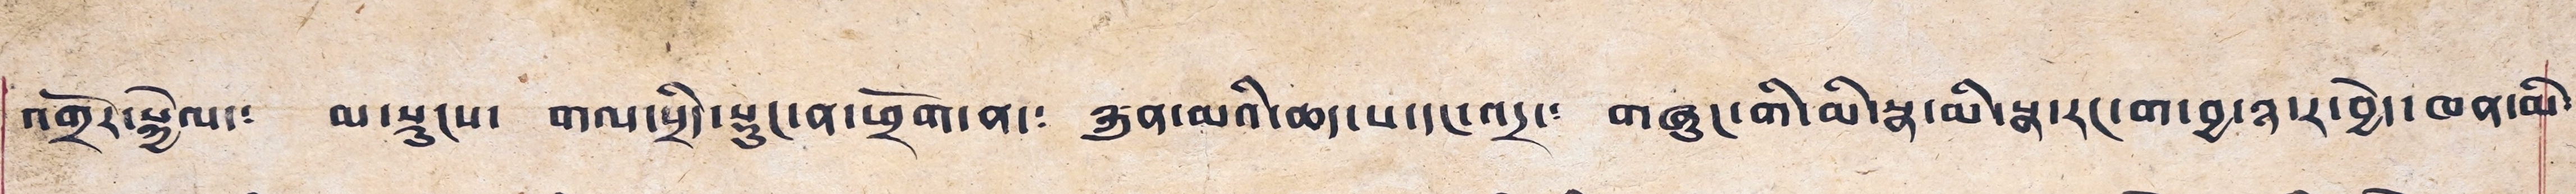འགྲོར་སྐྱེལ་༴ མ་སྡུངས། གལ་སྲིད་སྟུང་ན་ཕྲོག་ན་༴ རྐུན་མའི་ཆད་པ་དང་འདྲ་༴ གཞུང་གི་མི་སྣ་མི་སྣ་རང་ག་བྱ་ཉ་ར་བྱེད་ཁན་མི་
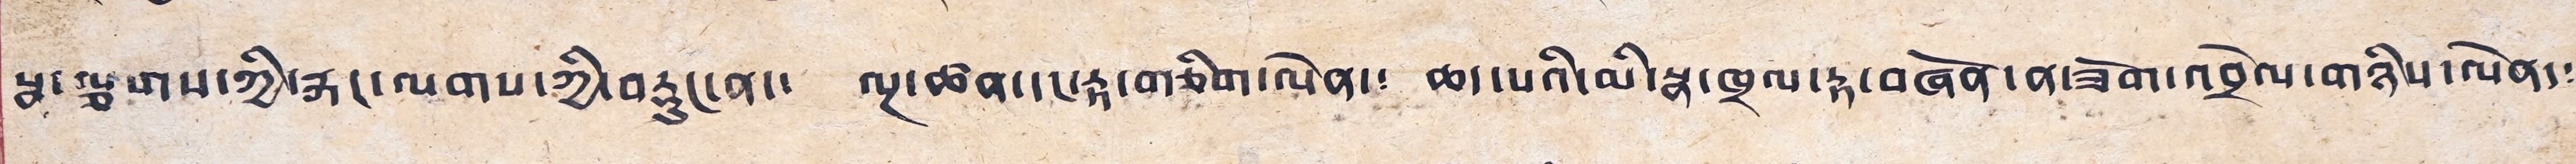སྣ་ལྕགས་ཀྱི་རྐང་ལགས་ཀྱི་བརྡུང་ན་༴ ལྔ་ཚན་དང་རྟ་གཅིག་ལེན་༴ ཆད་པའི་མི་སྣ་ཁྲལ་རྟ་བཞོན་ན་ཟོག་འབྲེལ་གཉིས་ལེན་༴
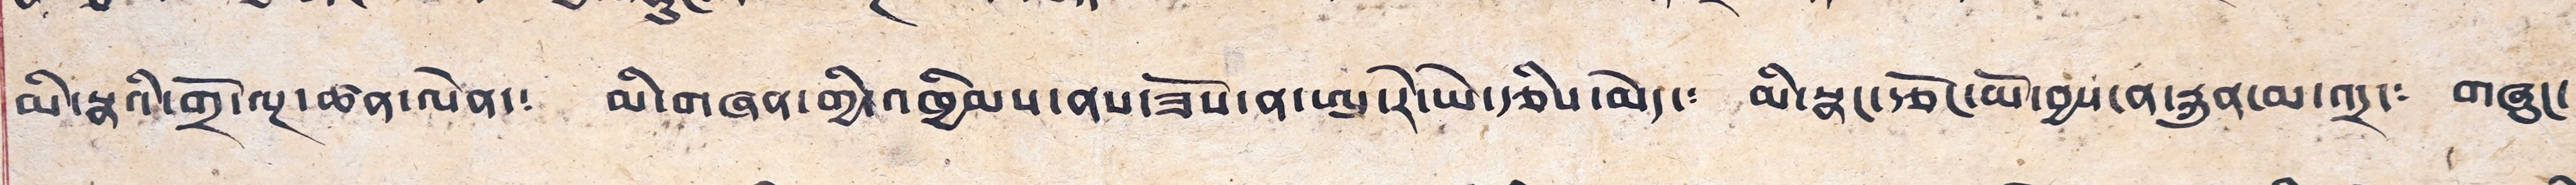མི་སྣའི་གྲོ་ལྔ་ཚན་ལེན་༴ མི་གཞན་གྱི་འཁྱིམས་ནས་ཟོས་ན་ཨུ་རེ་ཡེ་རྩིས་མེད་༴ མི་སྣང་རྩོང་ཡོ་བྱས་ན་རྐུན་མ་འདྲ་༴ གཞུང་
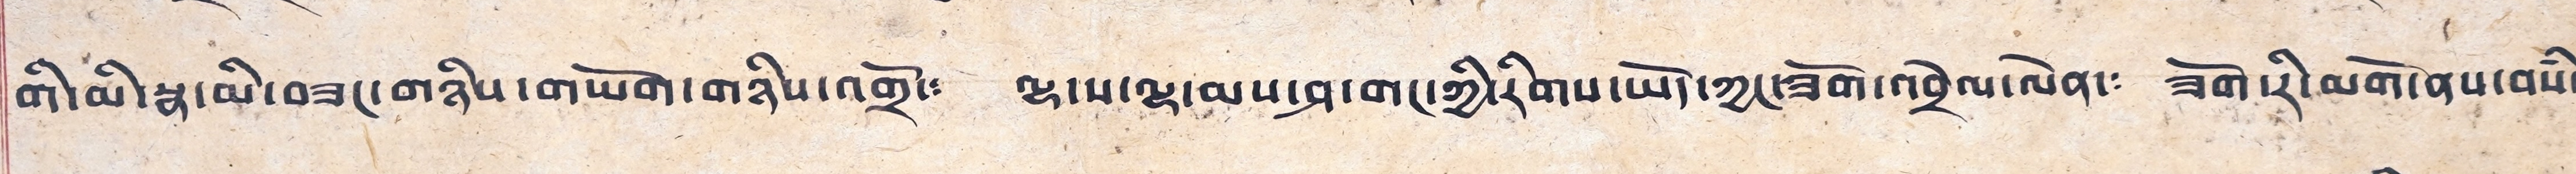གི་མི་སྣ་མི་བཟང་གཉིས་གཡོག་གཉིས་འགྲོ་༴ ལྷ་པ་ལྷ་མས་ཤ་གང་ཀྱི་རིགས་ཡོད་ཀྱང་ཟོག་འབྲེལ་ལེན་༴ ཟོག་རི་མགོ་ནས་བསཾ་
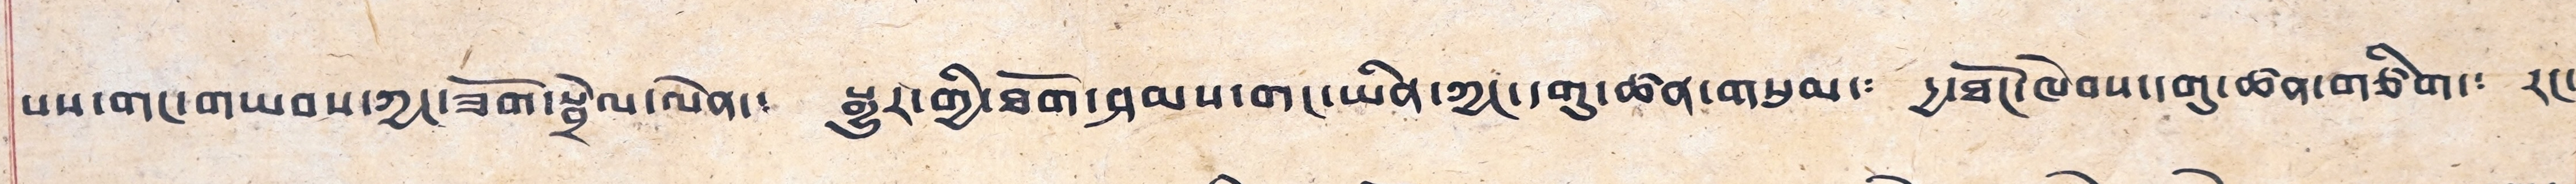པས་གང་གཡབས་ཀྱང་ཟོག་སྦྲེལ་ལེན་༴ སྒྱུར་གྱི་ཐོག་ཤམས་གང་ཡིན་ཀྱང་དགུ་ཚན་གསུམ་༴ དྱ་ཐོང་ཁེབས་དགུ་ཚན་གཅིག་༴ རང་
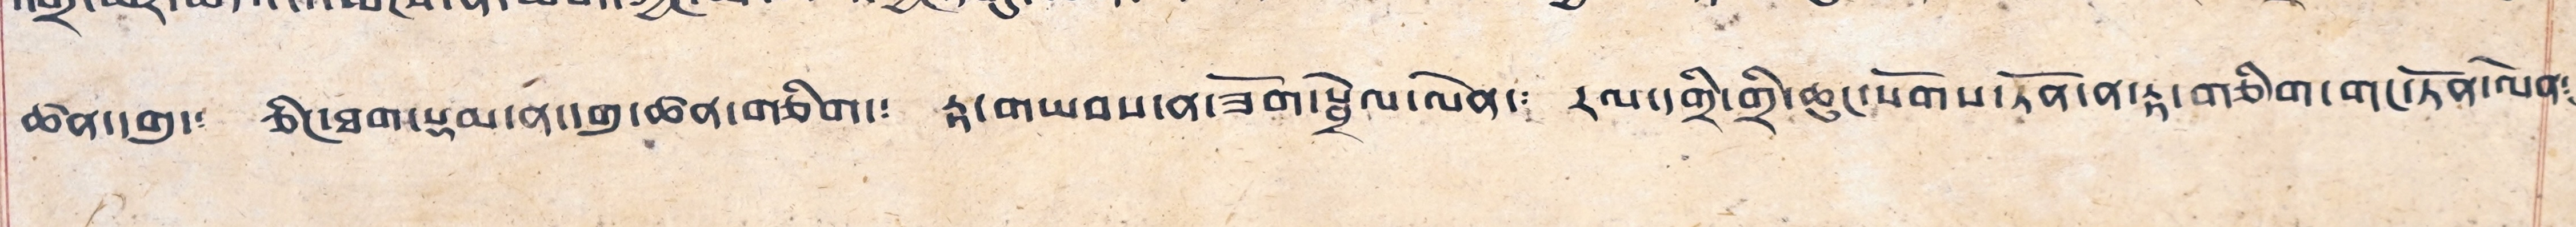ཚན་དགུ་༴ ཅིང་ཐག་སྡམ་ན་དགུ་ཚན་གཅིག་༴ རྟ་གཡབས་ན་ཟོག་སྦྲེལ་ལེན་༴ རལ་དགྲི་གྲི་ཆུང་སོགས་ཏོན་ན་རྟ་གཅིག་གང་ཏོན་ལེན་༴
